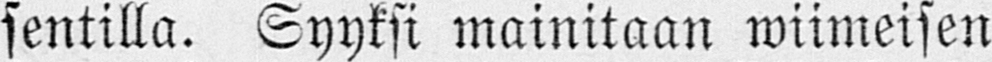sentilla. Syyksi mainitaan wiimeisen
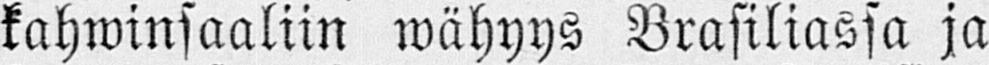kahwinsaaliin wähyys Brasiliassa ja
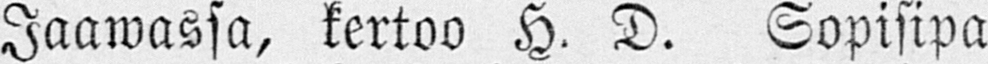Jaawassa, kertoo H. D. Sopisipa
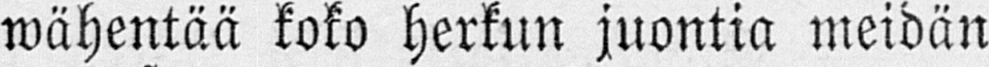wähentää koko herkun juontia meidän
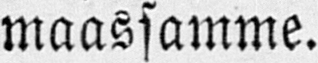maassamme.
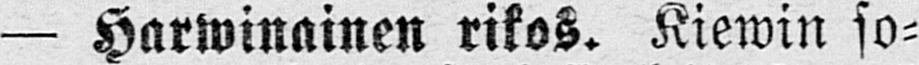— Harwinainen rikos. Kiewin so-
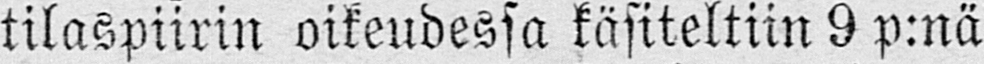tilaspiirin oikeudessa käsiteltiin 9 p:nä
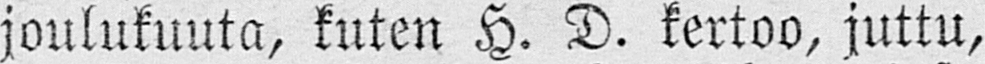joulukuuta, kuten H. D. kertoo, juttu,
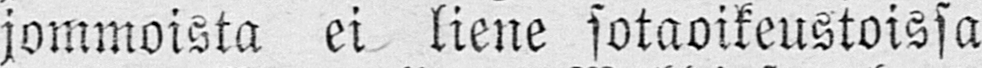jommoista ei liene sotaoikeustoissa
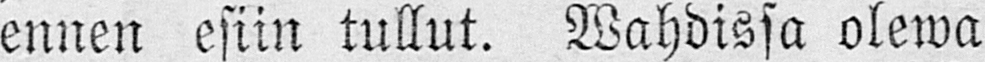ennen esiin tullut. Wahdissa olewa
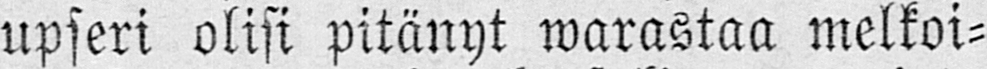upseri olisi pitänyt warastaa melkoi-
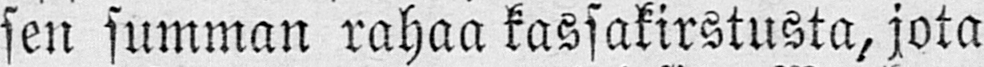sen summan rahaa kassakirstusta, jota
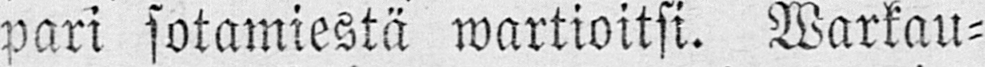pari sotamiestä wartioitsi. Warkau-
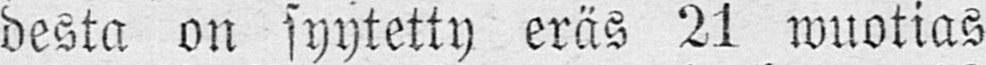desta on syytetty eräs 21 wuotias
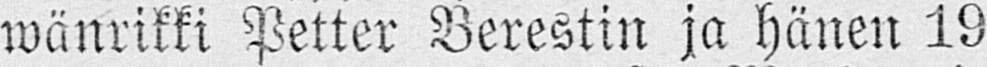wänrikki Petter Berestin ja hänen 19
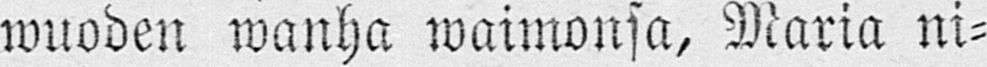wuoden wanha waimonsa, Maria ni-
